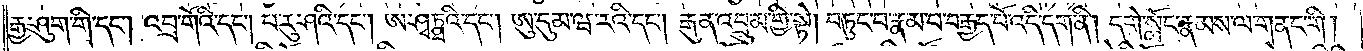རྒྱ་ཤུག་གི་དང༌། འབྲ་གོའི་དང༌། པ་རུ་ཤའི་དང༌། ཨ་ཤྭཏྠའི་དང༌། ཨུ་དུམ་ཝ་རའི་དང༌། རྒུན་འབྲུམ་གྱི་སྟེ། བཏུང་བ་རྣམ་པ་བརྒྱད་པོ་འདི་དག་ནི། དགེ་སློང་རྣམས་ལ་གནང་གི།
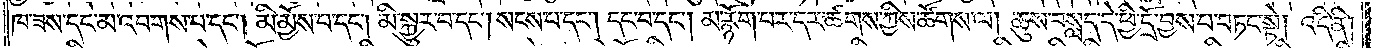ཁ་ཟས་དང་མ་འབགས་པ་དང༌། མི་མྱོས་པ་དང༌། མི་སྐྱུར་བ་དང༌། སངས་པ་དང༌། དང་བ་དང༌། མ་རྙོག་པར་དར་ཚགས་ཀྱིས་ཚོགས་ལ། ཆུས་བསླད་དེ་ཕྱི་དྲོ་བྱས་པ་བཏང་སྟེ། འདི་ནི།
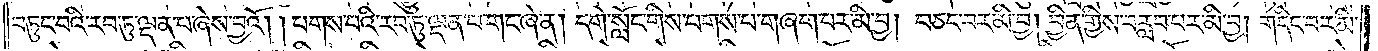བཏུང་བའི་རབ་ཏུ་ལྡན་པ་ཞེས་བྱའོ། །པགས་པའི་རབ་ཏུ་ལྡན་པ་གང་ཞེ་ན། དགེ་སློང་གིས་པགས་པ་གཞག་པར་མི་བྱ། བཅང་བར་མི་བྱ། བྱིན་གྱིས་བརླབ་པར་མི་བྱ། གདིང་བར་མི་
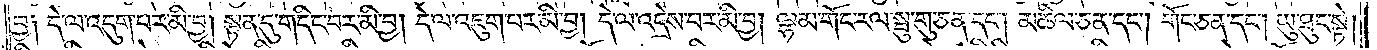བྱ༑ དེ་ལ་འདུག་པར་མི་བྱ། སྟན་དུ་གདིང་བར་མི་བྱ། དེ་ལ་འཇུག་པར་མི་བྱ། དེ་ལ་འདྲེས་པར་མི་བྱ། ལྷམ་གོང་རལ་སྦུ་གུ་ཅན་དང༌། མཆིལ་ཅན་དང༌། གོང་ཅན་དང༌། ཡུ་ཐུང་སྟེ།
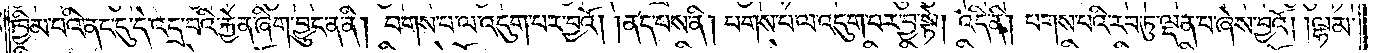ཁྱིམ་པའི་ནང་དུ་དེ་འདྲ་བའི་རྐྱེན་ཞིག་བྱུང་ན་ནི། པགས་པ་ལ་འདུག་པར་བྱའོ། །ནད་པས་ནི། པགས་པ་ལ་འདུག་པར་བྱ་སྟེ། འདི་ནི། པགས་པའི་རབ་ཏུ་ལྡན་པ་ཞེས་བྱའོ། །ལྷམ་
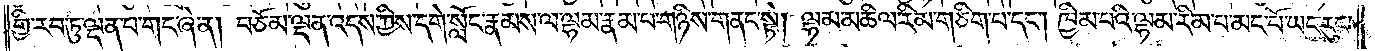གྱི་རབ་ཏུ་ལྡན་པ་གང་ཞེ་ན། བཅོམ་ལྡན་འདས་ཀྱིས་དགེ་སློང་རྣམས་ལ་ལྷམ་རྣམ་པ་གཉིས་གནང་སྟེ། ལྷམ་མཆིལ་རིམ་གཅིག་པ་དང༌། ཁྱིམ་པའི་ལྷམ་རིམ་པ་མང་པོ་ཡང་རུང་
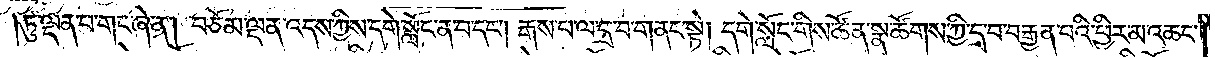ཏུ་ལྡན་པ་གང་ཞེ་ན། བཅོམ་ལྡན་འདས་ཀྱིས་དགེ་སློང་ན་བ་དང༌། རྒས་པ་ལ་དྲ་བ་གནང་སྟེ། དགེ་སློང་གིས་ཚོན་སྣ་ཚོགས་ཀྱི་དྲ་བ་བརྒྱན་པའི་ཕྱིར་མ་འཆང་
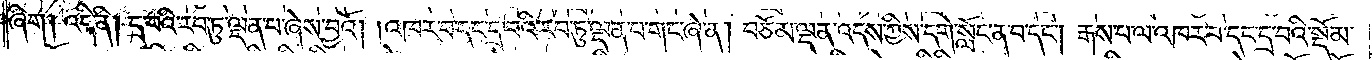ཞིག། འདི་ནི། དྲ་བའི་རབ་ཏུ་ལྡན་པ་ཞེས་བྱའོ། །འཁར་བ་དང་དྲ་བའི་རབ་ཏུ་ལྡན་པ་གང་ཞེ་ན། བཅོམ་ལྡན་འདས་ཀྱིས་དགེ་སློང་ན་བ་དང༌། རྒས་པ་ལ་འཁར་བ་དང་དྲ་བའི་སྡོམ་
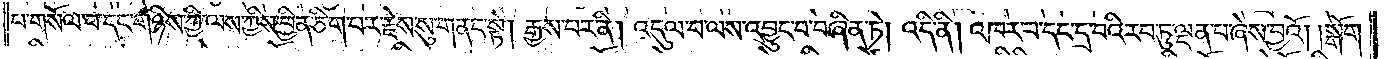པ་གསོལ་བ་དང་གཉིས་ཀྱི་ལས་ཀྱིས་བྱིན་ཅིག་པར་རྗེས་སུ་གནང་སྟེ། རྒྱས་པར་ནི། འདུལ་བ་ལས་འབྱུང་བ་བཞིན་ཏེ། འདི་ནི། འཁར་བ་དང་དྲ་བའི་རབ་ཏུ་ལྡན་པ་ཞེས་བྱའོ། །སྒོག་
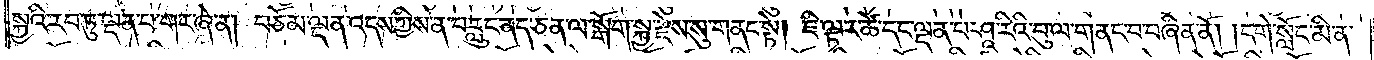སྐྱའི་རབ་ཏུ་ལྡན་པ་གང་ཞེ་ན། བཅོམ་ལྡན་འདས་ཀྱིས་ན་བ་རླུང་ནད་ཅན་ལ་སྒོག་སྐྱ་རྗེས་སུ་གནང་སྟེ། ཇི་ལྟར་ཚེ་དང་ལྡན་པ་ཤཱ་རིའི་བུ་ལ་གནང་བ་བཞིན་ནོ། །དགེ་སློང་མི་ན་
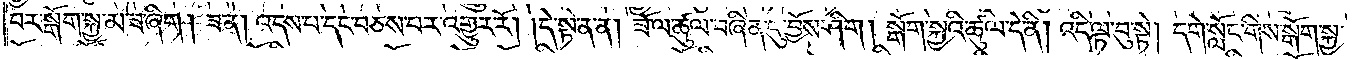བར་སྒོག་སྐྱ་མ་ཟ་ཞིག། ཟ་ན། འདས་པ་དང་བཅས་པར་འགྱུར་རོ། །དེ་སྟེ་ན་ན། ཟོ་ལ་ཚུལ་བཞིན་དུ་བྱོས་ཤིག། སྒོག་སྐྱའི་ཚུལ་དེ་ནི། འདི་ལྟ་བུ་སྟེ། དགེ་སློང་གིས་སྒོག་སྐྱ་
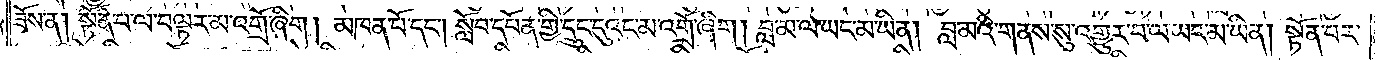ཟོས་ན། སྟོན་པ་ལ་བལྟར་མ་འགྲོ་ཞིག། མཁན་པོ་དང༌། སློབ་དཔོན་གྱི་དྲུང་དུའང་མ་འགྲོ་ཞིག། བླ་མ་ལ་ཡང་མ་ཡིན། བླ་མའི་གནས་སུ་འགྱུར་བ་ལ་ཡང་མ་ཡིན། སྟོན་པར་
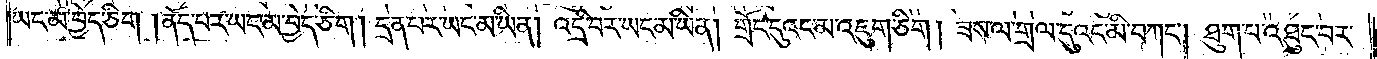ཡང་མ་བྱེད་ཅིག །ནོད་པར་ཡང་མ་བྱེད་ཅིག། དྲན་པར་ཡང་མ་ཡིན། འདྲི་བར་ཡང་མ་ཡིན། གྲོང་དུའང་མ་འཇུག་ཅིག། ཟས་ལ་གྲལ་དུའང་མི་བཀང༌། ཐུག་པ་འཐུང་བར་
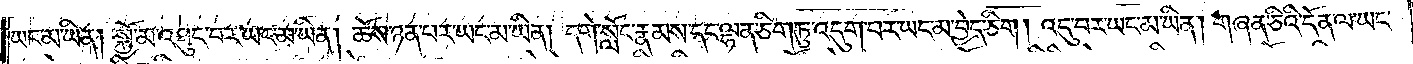ཡང་མ་ཡིན། སྐྱོ་མ་འཐུང་བར་ཡང་མ་ཡིན། ཆོས་ཉན་པར་ཡང་མ་ཡིན། དགེ་སློང་རྣམས་དང་ལྷན་ཅིག་ཏུ་འདུག་པར་ཡང་མ་བྱེད་ཅིག། འདུ་བར་ཡང་མ་ཡིན། གཞན་ཅིའི་དོན་ལ་ཡང་
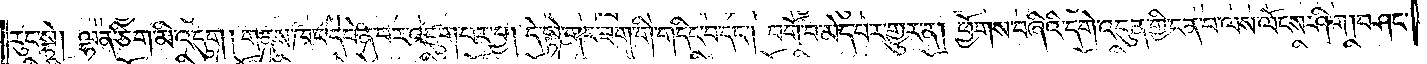རུང་སྟེ། ལྷན་ཅིག་མི་འདུག། གནས་ཁང་དབེན་པར་འདུག་པར་བྱ། དེ་སྟེ་གང་ཟག་གི་གདིང་བ་དང༌། བགོ་བ་མེད་པར་གྱུར་ན། ཕྱོགས་བཞིའི་དགེ་འདུན་གྱི་ངན་པ་ལས་ལོངས་ཤིག །བཤང་
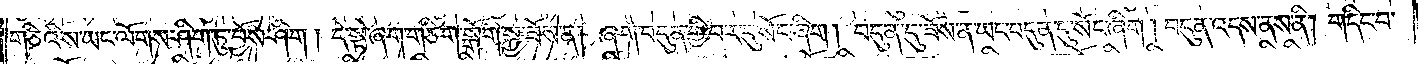གཅིའི་ས་ཡང་ལོགས་ཤིག་ཏུ་བྱོས་ཤིག། དེ་སྟེ་ཞག་གཅིག་སྒོག་སྐྱ་ཟོས་ན། ཞག་བདུན་གྱི་བར་དུ་སོང་ཞིག། བདུན་དུ་ཟོས་ན་ཡང་བདུན་དུ་སོང་ཞིག། བདུན་འདས་ནས་ནི། གདིང་བ་
